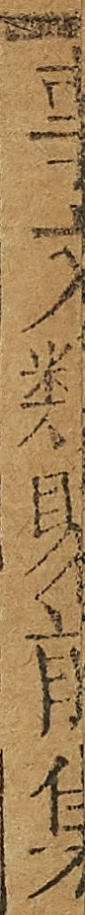事文類聚前集
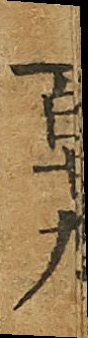百十九
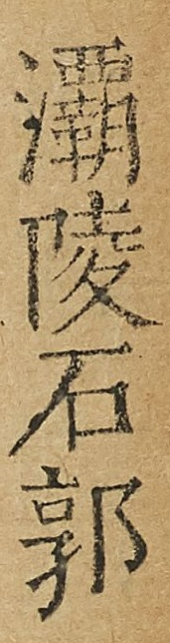灞陵石郭
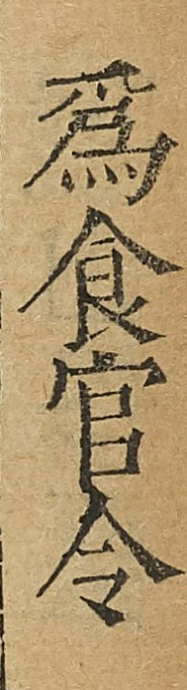為食官令
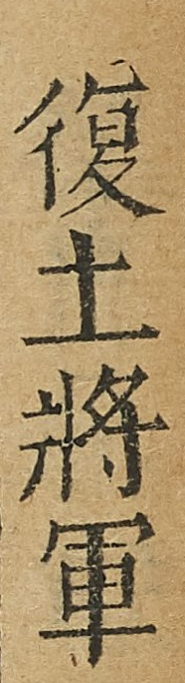復土將軍
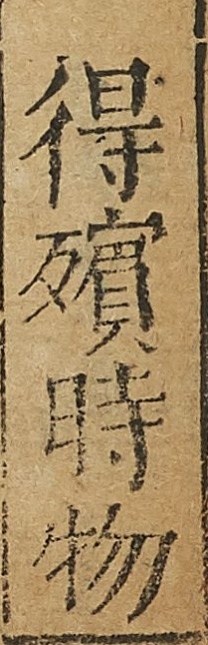得殯時物
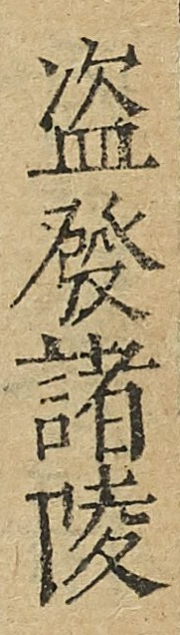盜發諸陵
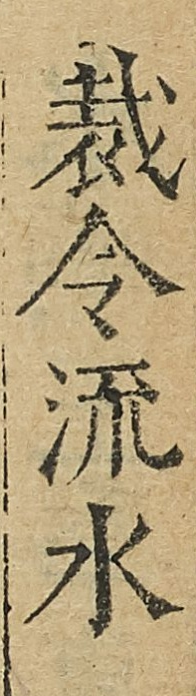裁令流水
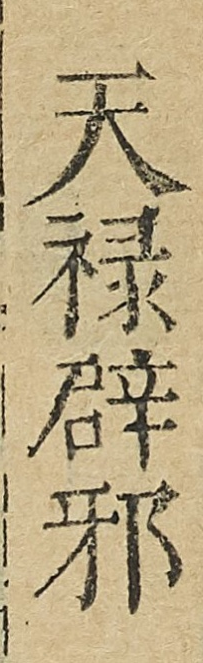天祿辟邪
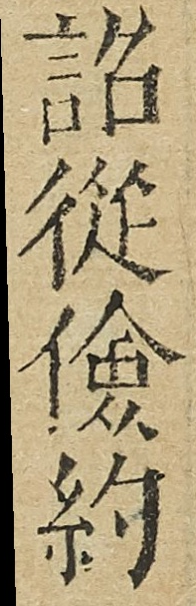詔從儉約
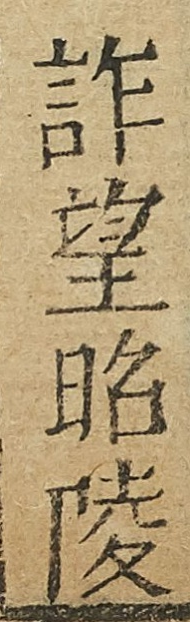詐望昭陵
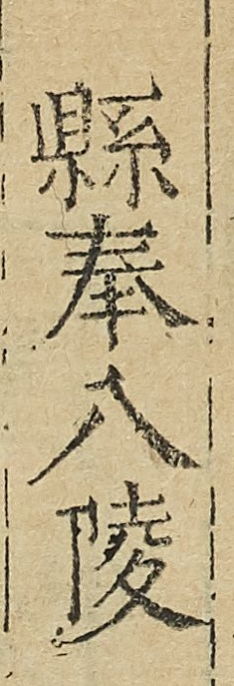縣奉八陵
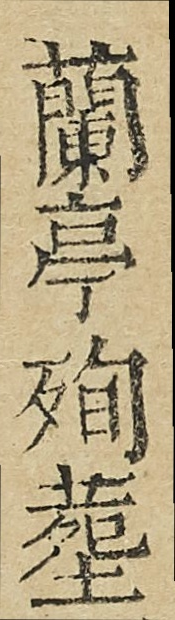蘭亭殉塟
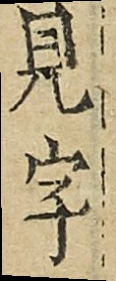見字
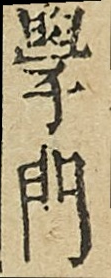學門
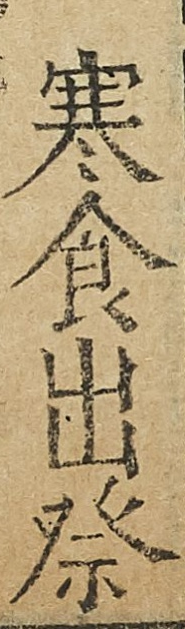寒食出祭
